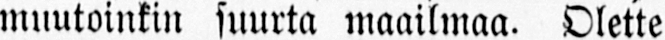muutoinkin suurta maailmaa. Olette
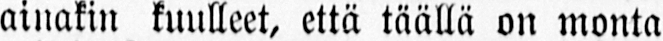ainakin kuulleet, että täällä on monta
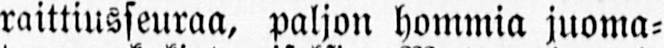raittiusseuraa, paljon hommia juoma-
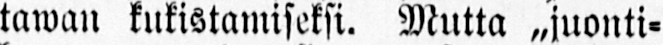tawan kukistamiseksi. Mutta ˶juonti-
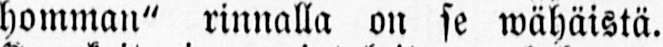homman" rinnalla on se wähäistä.
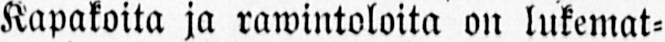Kapakoita ja rawintoloita on lukemat-
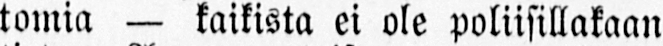tomia — kaikista ei ole poliisillakaan
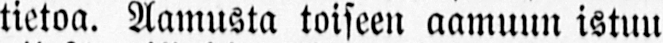tietoa. Aamusta toiseen aamuun istuu
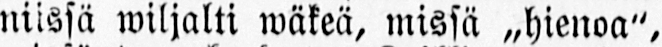niissä wiljalti wäkeä, missä ˶hienoa",
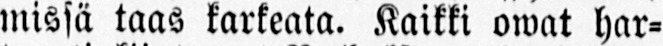missä taas karkeata. Kaikki owat har-
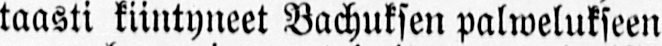taasti kiintyneet Bachuksen palwelukseen
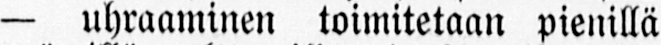— uhraaminen toimitetaan pienillä
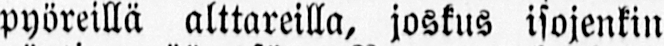pyöreillä alttareilla, joskus isojenkin
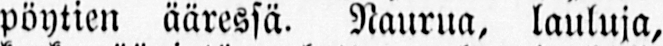pöytien ääressä. Naurua, lauluja,
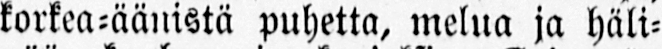korkea-äänistä puhetta, melua ja häli-
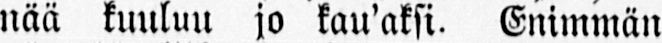nää kuuluu jo kau'aksi. Enimmän
